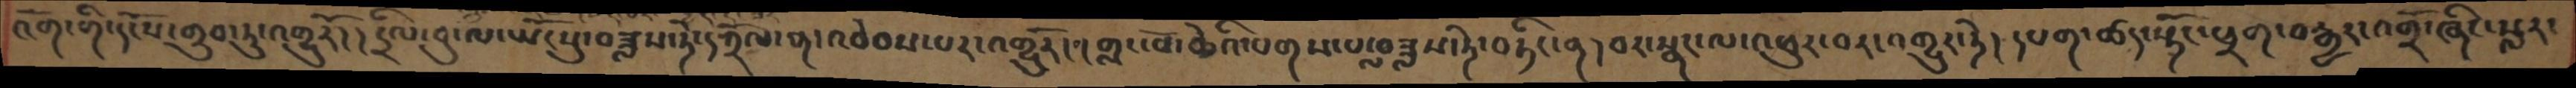འོག་གི་དངོས་གྲུབ་ཏུ་འགྱུརོ། །དྲིལ་བུ་ལ་ཡོངསུ་བཟླས་ཏེ་དཀྲོལ་ན་འབེབས་པར་འགྱུརོ། །གླང་པོ་ཆེའི་པགས་པ་ལ་བཟླས་ཏེ་བཏིང་ན། བར་སྣང་ལ་འཕུར་བར་འགྱུར་ཏེ། དཔག་ཚད་སྟོང་ཕྲག་བརྒྱད་འགྲོ་ཞིང་སླར་
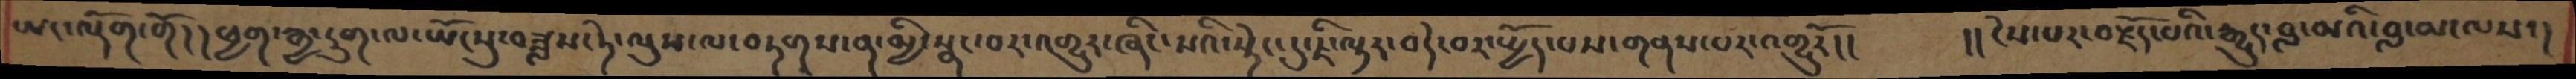ཡང་ལྡོག་གོ། ། ཕྱག་རྒྱ་དྲུག་ལ་ཡོངསུ་བཟླས་ཏེ་ལུས་ལ་བཏགས་ན་མྱི་སྣང་བར་འགྱུར་ཞིང་སའི་སྟེང་དུ་ཇི་ལྟར་བདེ་བར་སྤྱོད་པས་གནས་པར་འགྱུརོ།།    །།ངེས་པར་བརྗོད་པའི་རྒྱུད་བླ་མའི་བླ་མ་ལས་།
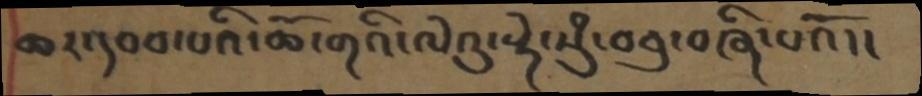ཆར་དབབ་པའི་ཆོ་གའི་ལེའུ་སྟེ་སུཾ་བཅུ་བཞི་པའོ །།
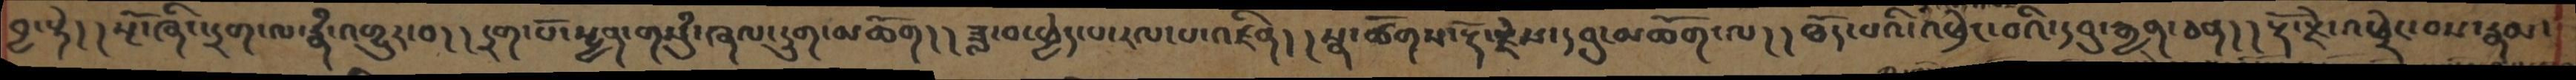བྱ་སྟེ། །སྔོ་ཞིང་དྲག་ལ་རྣཾ་འགྱུར་བ། །དྲག་པོ་སྤྱན་གསུཾ་ཞལ་དྲུག་མཆོག། །ཟླ་བ་ཕྱེད་པ་རལ་པ་འཛིན། །སྣ་ཚོགས་རྡོ་རྗེས་དབུ་མཆོག་ལ། །ཐོད་པའི་འཕྲེང་བའི་དབུ་རྒྱན་ཅན། །རྡོ་རྗེ་འཕྲེང་བས་རྣམ་
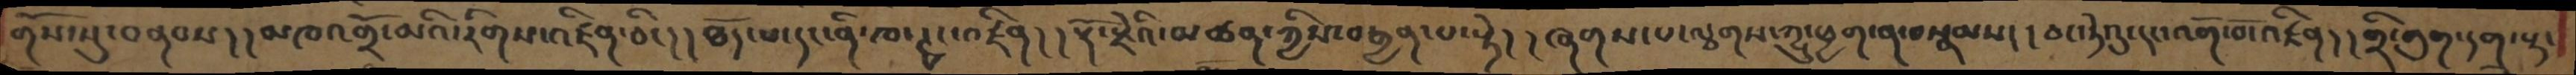གོས་སུ་བནབས། །མཁའགྲོ་མའི་རིགས་འཛིན་ཅིང། །ཐོད་པ་དང་ནི་ཁ་ཊྭང་འཛིན། ། རྡོ་རྗེའི་མཚན་ཀྱིས་བརྒྱན་པ་སྟེ། །ཞགས་པ་ལྩགས་ཀྱུ་ཕྱག་ན་བསྣམས། །ཅང་ཏེའུ་དང་འགོ་བོ་འཛིན། །གྲི་གུག་དགྲ་སྟ་
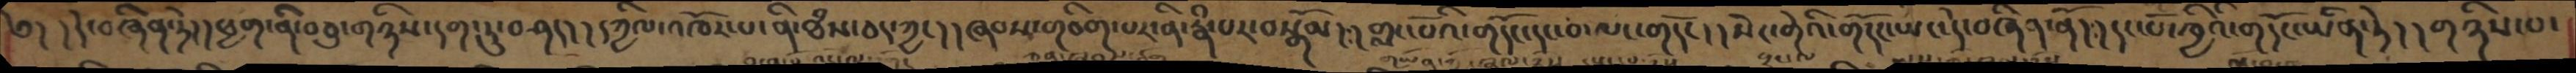༄། །དེ་བཞིན་ཏེ། །ཕྱག་ནི་བཅུ་གཉིས་དག་ཏུ་བཤད། །དཀྱིལ་འཁོར་པ་ནི་ཐཾས་ཅད་ཀྱང། །ཞབས་གཅིག་པར་ནི་རྣཾ་པར་བསྒོམ། །གླང་པོའི་གདོང་དང་བ་ལང་གདོང། །སེང་གེའི་གདོང་ཡང་དེ་བཞིན་ནོ། །དང་པོ་ཁྱིའི་གདོང་ཡིན་ཏེ། །གཉིས་པ་
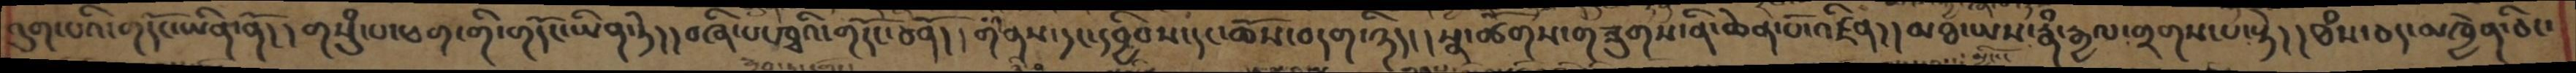འུག་པའི་གདོང་ཡིན་ནོ། །གསུཾ་པ་ཕག་གི་གདོང་ཡིན་ཏེ། །བཞི་པ་ཁྭའི་གདོང་ཅནོ། །གནས་དང་དབྱིབས་དང་ཆོས་བདག་ཉིད། །སྣ་ཚོགས་གཟུགས་ནི་ཆེན་པོ་འཛིན། །མཐ་ཡས་རྣཾ་རྒྱལ་གྲགས་པ་སྟེ། །ཐཾས་ཅད་མཁྱེན་ཅིང་
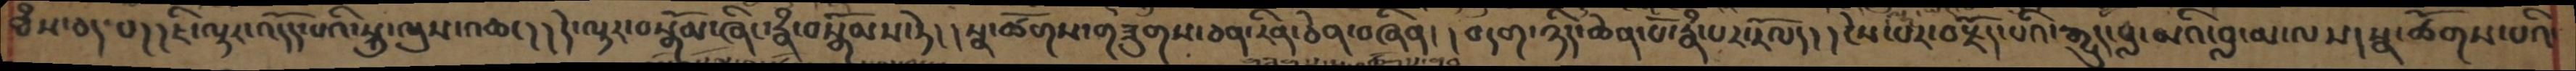ཐཾས་ཅད་པ། །ཇི་ལྟར་འདོད་པའི་སྐུ་ལུས་འཆང། །དེ་ལྟར་བསྒོམ་ཞིང་རྣཾ་བསྒོམས་ཏེ། །སྣ་ཚོགས་གཟུགས་ཅན་རིན་ཅེན་བཞིན། །བདག་ཉིད་ཆེན་པོ་རྣཾ་པར་རོལ། །ངེས་པར་བརྗོད་པའི་རྒྱུད་བླ་མའི་བླ་མ་ལས།སྣ་ཚོགས་པའི་
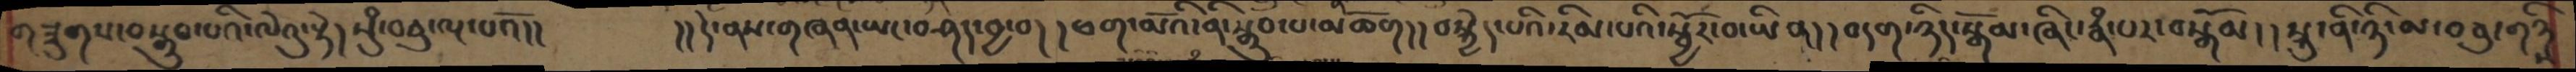གཟུགས་བསྒྲུབ་པའི་ལེའུ་སྟེ། སུཾ་བཅུ་ལྔ་པའོ།།   །།དེ་ནས་གཞན་ཡང་བཤད་བྱ་བ། །ཕག་མོའི་ནི་སྒྲུབ་པ་མཆོག། །བསྐྱེད་པའི་རིམ་པའི་སྦྱོར་བ་ཡིན། །བདག་ཉིད་སྒོམ་ཞིང་རྣཾ་པར་བསྒོམ། །སྐུ་ནི་ཉི་མ་བཅུ་གཉིས
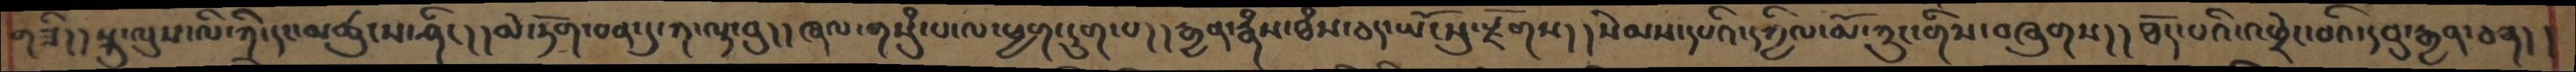གཟི།།སྐུ་ལུས་ལི་ཀི་དང་མཚུངས་ཤིང།།མེ་ཏོག་ཅན་དུ་ཀ་ལྟ་བུ།།ཞལ་གསུཾ་པ་ལ་ཕྱག་དྲུག་པ།།རྒྱན་རྣཾས་ཐཾས་ཅད་ཡོངསུ་རྫོགས།།སེམས་དཔའི་དཀྱིལ་མོ་ཀྲུང་གིས་བཞུགས།།ཐོད་པའི་འཕྲེང་བའི་དབུ་རྒྱན་ཅན།།
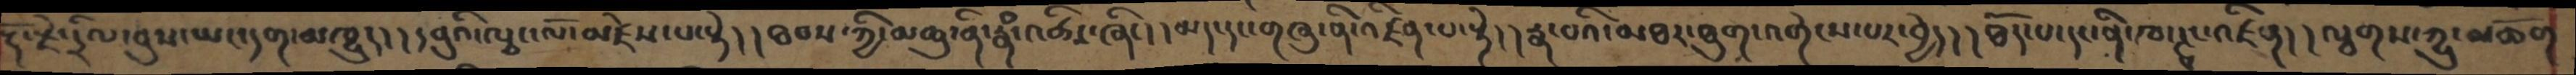རྡོ་རྗེ་དྲིལ་བུས་ཡང་དག་མཁྱུད། །དབུའི་ལྕང་ལོ་མཛེས་པ་སྟེ། །ཐབས་ཀྱི་མཆུ་ནི་རྣཾ་འཚེར་ཞིང། །དམར་དང་གཞུ་ནི་འཛིན་པ་སྟེ། །རྣ་བའི་མཐར་ཐུག་འགེངས་པར་བྱེད། །ཐོད་པ་དང་ནི་ཁ་ཊྭང་འཛིན། །ལྕགས་ཀྱུ་མཆོག
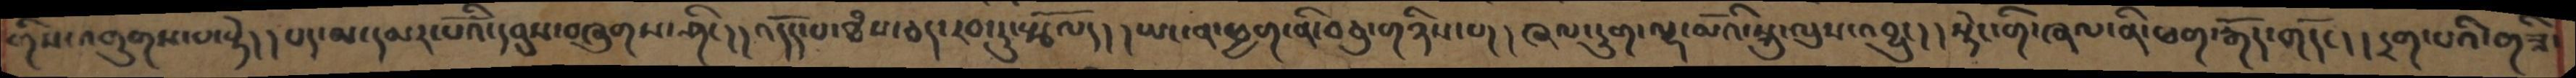གིས་འགུགས་པ་སྟེ། །པད་མ་དམར་པོའི་དབུས་བཞུགས་ཤིང།།འདོད་པ་ཐཾས་ཅད་རབ་ཏུ་སྩོལ། །ཡང་ན་ཕྱག་ནི་བཅུ་གཉིས་པ། །ཞལ་དྲུག་ལྷ་མོའི་སྐུ་ལུས་འབྱུང། །སྟེང་གི་ཞལ་ནི་ཕག་རྒོད་གདོང། །དྲག་པའི་གཟི་
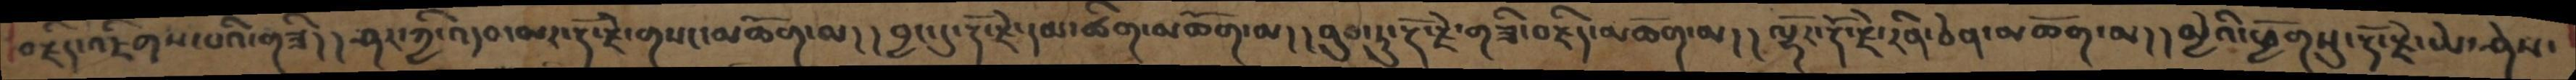བརྗིད་འཇིགས་པའི་གཟི། །ཤར་ཀྱི་འདབ་མར་རྡོ་རྗེ་གསང་མཆོག་མ། །བྱང་དུ་རྡོ་རྗེ་དམ་ཚིག་མཆོག་མ། །ནུབ་ཏུ་རྡོ་རྗེ་གཟི་བརྗིད་མཆོག་མ། །ལྷོར་རྡོ་རྗེ་རིན་ཅེན་མཆོག་མ། །མྱེའི་ཕྱོགསུ་རྡོ་རྗེ་ཡེ་ཤེས་
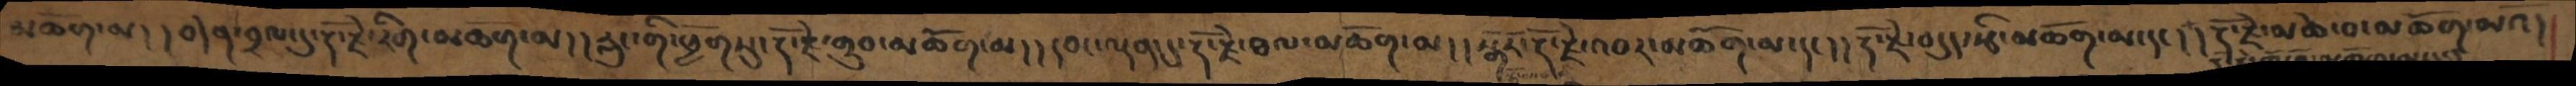མཆོག་མ། །བདེན་བྲལ་དུ་རྡོ་རྗེ་རིག་མཆོག་མ། །རླུང་གི་ཕྱོགསུ་རྡོ་རྗེ་གྲུབ་མཆོག་མ། །དབང་ལྡན་དུ་རྡོ་རྗེ་ཐལ་མཆོག་མ། །སྒོར་རྡོ་རྗེ་འབར་མཆོག་མ་དང། །རྡོ་རྗེ་བདུད་རྩི་མཆོག་མ་དང། །རྡོ་རྗེ་མཆེ་བ་མཆོག་མའོ།
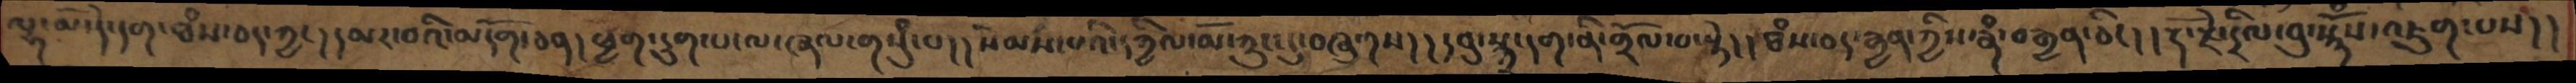ལྷ་མོ་དེ་དག་ཐཾས་ཅད་ཀྱང། །དམར་བའི་མདོག་ཅན། ཕྱག་དྲུག་པ་ལ་ཞལ་གསུཾ་པ། །སེམས་པའི་དཀྱིལ་མོ་ཀྲུང་དུ་བཞུགས། །དབུ་སྐྲ་དག་ནི་གྲོལ་བ་སྟེ། །ཐཾས་ཅད་རྒྱན་ཀྱིས་རྣཾ་བརྒྱན་ཅིང། །རྡོ་རྗེ་དྲིལ་བུ་སྙོཾས་འཇུག་པས། །
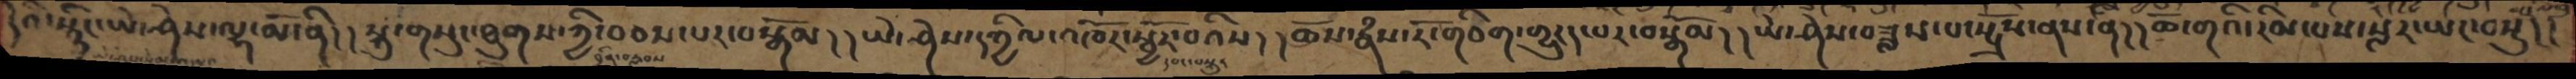དེའི་སྙིང་ཡེ་ཤེས་ལྷ་མོ་ནི། །སྐུ་གསུང་ཐུགས་ཀྱི་བཅས་པར་བསྒོམ། །ཡེ་ཤེས་དཀྱིལ་འཁོར་སྦྱོར་བའིས། །ཆོས་རྣཾས་རོ་གཅོག་གྱུརད་པར་བསྒོམ། །ཡེ་ཤེས་བཟླས་པ་སྤྲོས་ནས་ནི། །ཆོ་གའི་རིམ་པས་སླར་ཡང་བསྡུ།།
